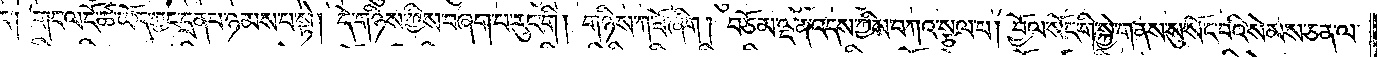དང༌། གང་ལ་ངོ་ཚ་ཡོད་ཀྱང་དྲན་པ་ཉམས་པ་སྟེ། དེ་གཉིས་ཀྱིས་བཞག་པ་རུང་གི། གཉིས་ཀ་ཟོ་ཞིག། བཅོམ་ལྡན་འདས་ཀྱིས་བཀའ་སྩལ་པ། བྱོལ་སོང་གི་སྐྱེ་གནས་སུ་སོང་བའི་སེམས་ཅན་ལ་
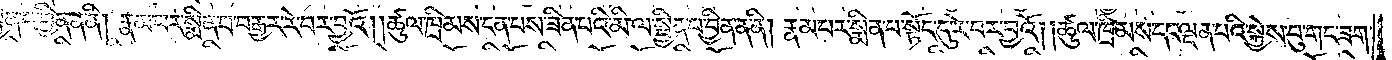སྦྱིན་པ་བྱིན་ན་ནི། རྣམ་པར་སྨིན་པ་བརྒྱར་རེ་བར་བྱའོ། །ཚུལ་ཁྲིམས་ངན་པས་ཟིན་པའི་མི་ལ་སྦྱིན་པ་བྱིན་ན་ནི། རྣམ་པར་སྨིན་པ་སྟོང་དུ་རེ་བར་བྱའོ། །ཚུལ་ཁྲིམས་དང་ལྡན་པའི་སྐྱེས་བུ་གང་ཟག་
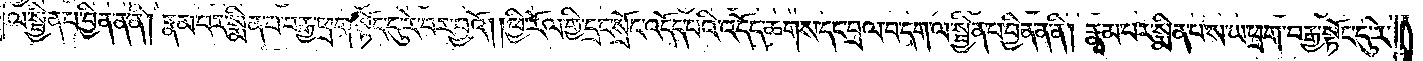ལ་སྦྱིན་པ་བྱིན་ན་ནི། རྣམ་པར་སྨིན་པ་བརྒྱ་ཕྲག་སྟོང་དུ་རེ་བར་བྱའོ། །ཕྱི་རོལ་གྱི་དྲང་སྲོང་འདོད་པའི་འདོད་ཆགས་དང་བྲལ་བ་དག་ལ་སྦྱིན་པ་བྱིན་ན་ནི། རྣམ་པར་སྨིན་པ་ས་ཡ་ཕྲག་བརྒྱ་སྟོང་དུ་རེ་
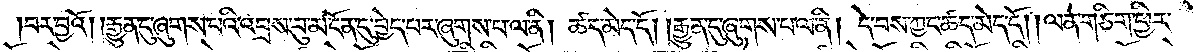བར་བྱའོ། །རྒྱུན་དུ་ཞུགས་པའི་འབྲས་བུ་མངོན་དུ་བྱེད་པར་ཞུགས་པ་ལ་ནི། ཚད་མེད་དོ། །རྒྱུན་དུ་ཞུགས་པ་ལ་ནི། དེ་བས་ཀྱང་ཚད་མེད་དོ། །ལན་གཅིག་ཕྱིར་
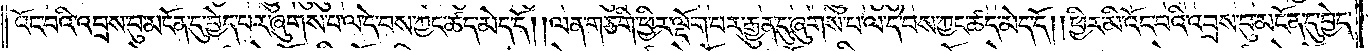འོང་བའི་འབྲས་བུ་མངོན་དུ་བྱེད་པར་ཞུགས་པ་ལ་དེ་བས་ཀྱང་ཚད་མེད་དོ། །ལན་གཅིག་ཕྱིར་ལྡོག་པར་རྒྱུན་དུ་ཞུགས་པ་ལ་དེ་བས་ཀྱང་ཚད་མེད་དོ། །ཕྱིར་མི་འོང་བའི་འབྲས་བུ་མངོན་དུ་བྱེད་
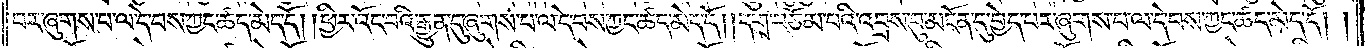བར་ཞུགས་པ་ལ་དེ་བས་ཀྱང་ཚད་མེད་དོ། །ཕྱིར་འོང་བའི་རྒྱུན་དུ་ཞུགས་པ་ལ་དེ་བས་ཀྱང་ཚད་མེད་དོ། །དགྲ་བཅོམ་པའི་འབྲས་བུ་མངོན་དུ་བྱེད་པར་ཞུགས་པ་ལ་དེ་བས་ཀྱང་ཚད་མེད་དོ། །
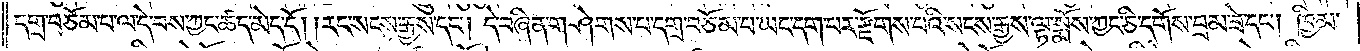དགྲ་བཅོམ་པ་ལ་དེ་བས་ཀྱང་ཚད་མེད་དོ། །རང་སངས་རྒྱས་དང༌། དེ་བཞིན་གཤེགས་པ་དགྲ་བཅོམ་པ་ཡང་དག་པར་རྫོགས་པའི་སངས་རྒྱས་ལྟ་སྨོས་ཀྱང་ཅི་དགོས་བྲམ་ཟེ་དང༌། ཁྱིམ་
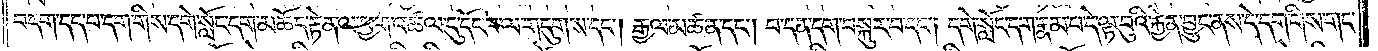བདག་དད་པ་དག་གིས་དགེ་སློང་དག་མཆོད་རྟེན་ལ་ཕྱག་འཚལ་དུ་དོང་བ་ལ་གདུགས་དང༌། རྒྱལ་མཚན་དང༌། བ་དན་དག་བསྐུར་བ་དང༌། དགེ་སློང་དག་རྣམ་པ་དེ་ལྟ་བུའི་རྐྱེན་བྱུང་ནས་དེ་དག་གིས་གང་
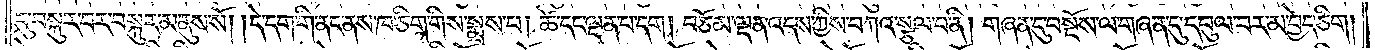དུ་བསྐུར་བར་བསྐུར་མ་ནུས་སོ། །དེ་དག་གི་ནང་ནས་ཁ་ཅིག་གིས་སྨྲས་པ། ཚེ་དང་ལྡན་པ་དག། བཅོམ་ལྡན་འདས་ཀྱིས་བཀའ་སྩལ་པ་ནི། གཞན་དུ་བསྔོས་ལ་གཞན་དུ་དབུལ་བར་མ་བྱེད་ཅིག།
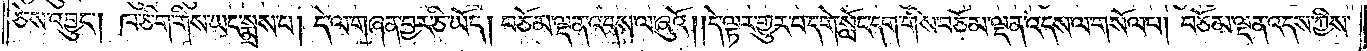ཅེས་འབྱུང༌། ཁ་ཅིག་གིས་ཡང་སྨྲས་པ། དེ་ལ་གཞན་བྱར་ཅི་ཡོད། བཅོམ་ལྡན་འདས་ལ་ཞུའོ། །དེ་ལྟར་གྱུར་པ་དགེ་སློང་དག་གིས་བཅོམ་ལྡན་འདས་ལ་གསོལ་པ། བཅོམ་ལྡན་འདས་ཀྱིས་
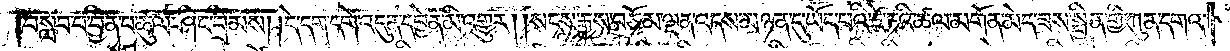བསླབ་པ་བྱིན་པ་ཚུལ་ཤིང་བྲིམས། །དེ་དག་དགེ་འདུན་དབྱེན་མི་འགྱུར། །སངས་རྒྱས་བཅོམ་ལྡན་འདས་མཉན་དུ་ཡོད་པའི་ཛེ་ཏའི་ཚལ་མགོན་མེད་པས་སྦྱིན་གྱི་ཀུན་དགའ་
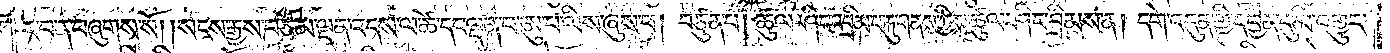ར་བ་ན་བཞུགས་སོ། །སངས་རྒྱས་བཅོམ་ལྡན་འདས་ལ་ཚེ་དང་ལྡན་པ་ཨུ་པ་ལིས་ཞུས་པ། བཙུན་པ། ཚུལ་ཤིང་འབྲིམ་པ་རྐུ་གནས་ཀྱིས་ཚུལ་ཤིང་བྲིམས་ན། དགེ་འདུན་གྱི་དབྱེན་དུ་མི་འགྱུར་
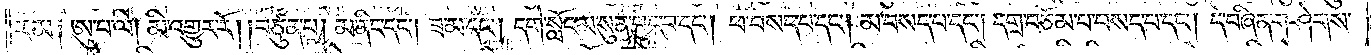རམ༑ ཨུ་པ་ལི། མི་འགྱུར་རོ། །བཙུན་པ། མ་ནིང་དང༌། ཟ་མ་དང༌། དགེ་སློང་མ་སུན་ཕྱུང་བ་དང༌། ཕ་བསད་པ་དང༌། མ་བསད་པ་དང༌། དགྲ་བཅོམ་པ་བསད་པ་དང༌། དེ་བཞིན་གཤེགས་
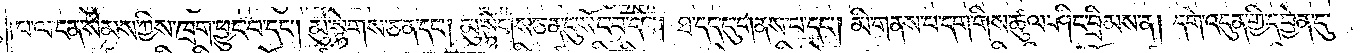པ་ལ་ངན་སེམས་ཀྱིས་ཁྲག་ཕྱུང་བ་དང༌། མུ་སྟེགས་ཅན་དང༌། མུ་སྟེགས་ཅན་དུ་སོང་བ་དང༌། ཐ་དད་དུ་གནས་པ་དང༌། མི་གནས་པ་དག་གིས་ཚུལ་ཤིང་བྲིམས་ན། དགེ་འདུན་གྱི་དབྱེན་དུ་
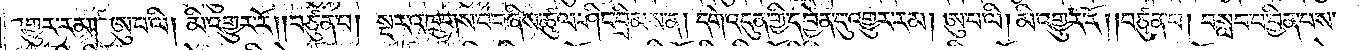འགྱུར་རམ། ཨུ་པ་ལི། མི་འགྱུར་རོ། །བཙུན་པ། སྔར་འཁྲུགས་པ་བཞིས་ཚུལ་ཤིང་བྲིམས་ན། དགེ་འདུན་གྱི་དབྱེན་དུ་འགྱུར་རམ། ཨུ་པ་ལི། མི་འགྱུར་རོ། །བཙུན་པ། བསླབ་པ་བྱིན་པས་
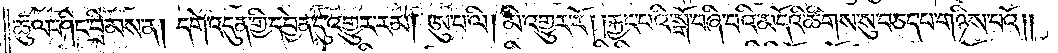ཚུལ་ཤིང་བྲིམས་ན། དགེ་འདུན་གྱི་དབྱེན་དུ་འགྱུར་རམ། ཨུ་པ་ལི། མི་འགྱུར་རོ། །རྐྱང་པའི་སྒོ་བཞི་པའི་མདོའི་ཚིགས་སུ་བཅད་པ་གཉིས་པའོ༎
